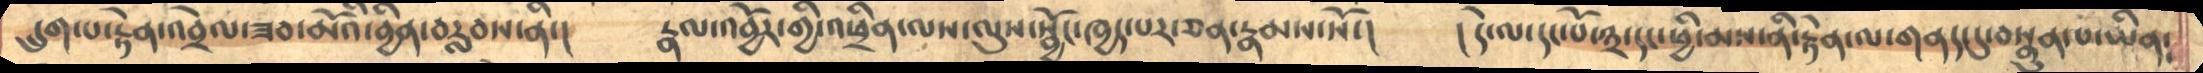དྲུག་པ་རྟེན་འབྲེལ་ཟབ་མོའི་བྱིན་བརླབས་ནི་།    རྣལ་འབྱོར་གྱི་འཕྲིན་ལས་ལུས་སྦྱོང་ཁྱད་པར་ཅན་རྣམས་སོ་།   །དེ་ལ་དང་པོ་༣་དང་ཕྱི་མས་ནི་རྟེན་ལ་གནད་དུ་བསྣུན་པ་ཡིན༴
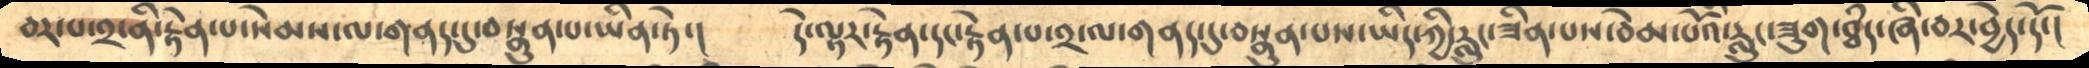བར་པ་༢་ནི་རྟེན་པ་སེམས་ལ་གནད་དུ་བསྣུན་པ་ཡིན་ཏེ་།    དེ་ལྟར་རྟེན་དང་རྟེན་པ་༢་ལ་གནད་དུ་བསྣུན་པས་ཡིད་ཀྱི་རླུང་ཟིན་པས་བེམ་པོའི་རླུང་ཟུག་ཐཾད་ཞི་བར་བྱེད་དོ་།
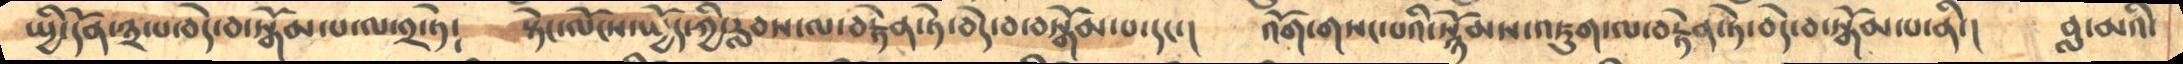སྤྱི་དོན་༣་པ་བདེ་བ་སྒོམ་པ་ལ་༢་ཏེ༴   སྟེང་ལོངས་སྤྱོད་ཀྱི་རླབས་ལ་བརྟེན་ཏེ་བདེ་བ་བསྒོམ་པ་དང་།   འོག་གསང་པའི་སྙོམས་འཇུག་ལ་བརྟེན་ཏེ་བདེ་བ་སྒོམ་པ་ནི་།   བླ་མའི་
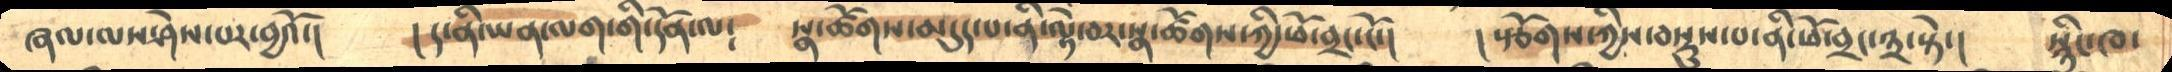ཞལ་ལས་ཤེས་པར་བྱའོ་།   །ད་ནི་ཡན་ལག་གི་དོན་ལ༴   སྣ་ཚོགས་མདུད་པ་ནི་ལྟེ་བར་སྣ་ཚོགས་ཀྱི་ཕོ་བྲང་ངོ་།    །སྩོགས་ཀྱིས་བསྡུས་པ་ནི་ཕོ་བྲང་༣་སྟེ་།    སྙིང་ཁ་
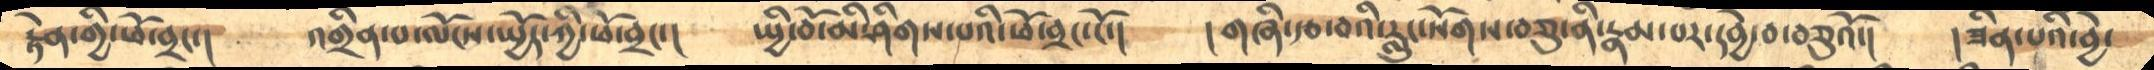རྟེན་གྱི་ཕོ་བྲང་།   འགྲིན་པ་ལོངས་སྤྱོད་ཀྱི་ཕོ་བྲང་།   སྤྱི་བོ་མི་ཤིགས་པའི་ཕོ་བྲང་ངོ་།    །གཞི་རྩ་བའི་རླུང་སོགས་བཅུ་ནི་རྣམ་པར་དབྱེ་བ་བཅུའོ་།    །ཟིན་པའི་བྱེ་
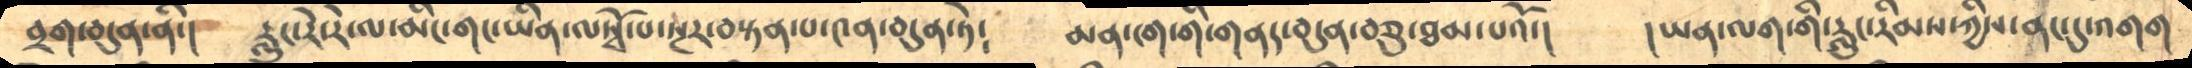བྲག་བདུན་ནི་།    རླུང་རེ་རེ་ལ་མིང་གང་ཡིན་ལསྭོ་པ་སྔར་བསྟན་པ་༤ན་བདུན་ཏེ༴    མན་ངག་གི་གནད་བདུན་བཅུ་ཐམ་པའོ་།   །ཡན་ལག་གི་རླུང་རིམས་ཀྱིས་ནང་དུ་འགག
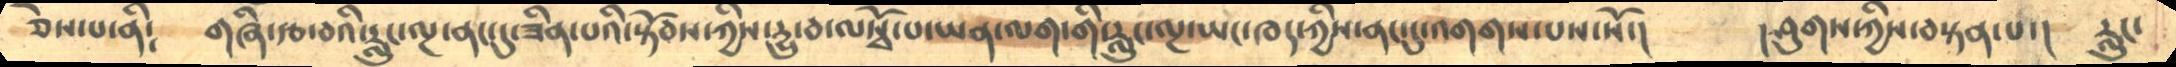ཅེས་པ་ནི༴    གཞི་རྩ་བའི་རླུང་ལྔ་ནང་དུ་ཟིན་པའི་སྟོབས་ཀྱིས་དྱུ་བ་ལསྭོ་པ་ཡན་ལག་གི་རླུང་ལྔ་ཡང་ཁད་ཀྱིས་ནང་དུ་འགགས་པས་སོ་།     །ཤུགས་ཀྱིས་བསྟན་པ་།   རླུང་
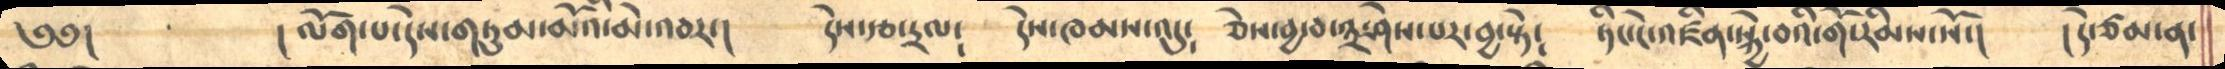༄༅།       །ལོག་པ་དེས་གཏུམ་མོ་མེ་འབར་།   དེས་རྩ་དྲལ༴   དེས་ཁམས་འདུ༴   ཅེས་བྱ་བ་༣་ཤེས་པར་བྱ་སྟེ༴   ཏིང་ངེ་འཛིན་སྐྱེ་བའི་གོ་རིམས་སོ་།   །དེ་ཙམ་ན་
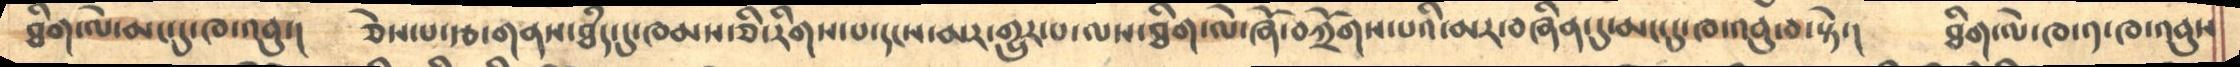ཐིག་ལེ་མང་དུ་ཁ་འབུ་།    ཅེས་པ་རྩ་གནས་ཐཾད་དུ་ཁམས་ཅི་རིགས་པ་དངས་མར་གྱུར་པ་ལས་ཐིག་ལེ་ཞོ་བཀྲོགས་པའི་མར་བཞིན་དུ་མང་དུ་ཁ་འབུ་བ་སྟེ་།   ཐིག་ལེ་ཁ་༡་ཁ་འབུས
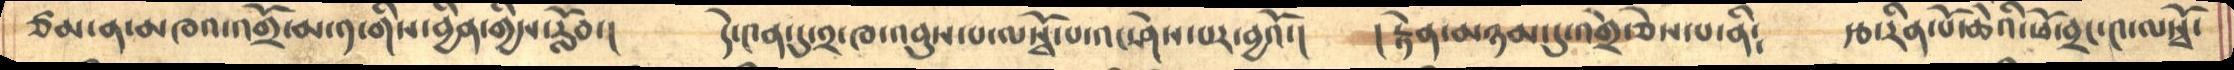ཙམ་ན་མཁའ་འགྲོ་མ་༡་གིས་བྱིན་གྱིས་རློབ་།   དེ་༤ན་དུ་༢་ཁ་འབུས་པ་ལསྭོ་པ་འང་ཤེས་པར་བྱའོ་།   །རྟེན་མཉམ་དུ་འགྲོ་ཅེས་པ་ནི༴   རྩ་རིན་པོ་ཆེའི་ཕོ་བྲང༤་ལསྭོ་
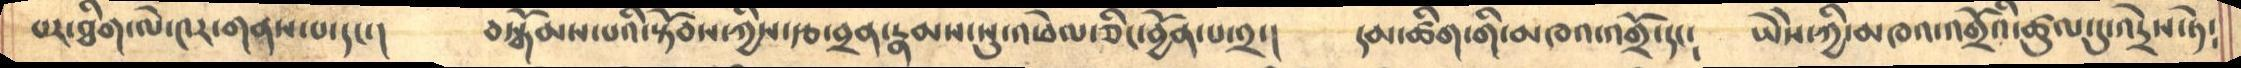པར་ཐིག་ལེ་༤ར་གནས་པ་དང་།    བསྒོམས་པའི་སྟོབས་ཀྱིས་རྩ་བྲན་རྣམས་སུ་འཕེལ་ཅིང་བྱོན་པ་༢་།    དམ་ཚིག་གི་མཁའ་འགྲོ་དང༴   ཡཻས་ཀྱི་མཁའ་འགྲོའི་ཚུལ་དུ་འདྲེས་ཏེ༴
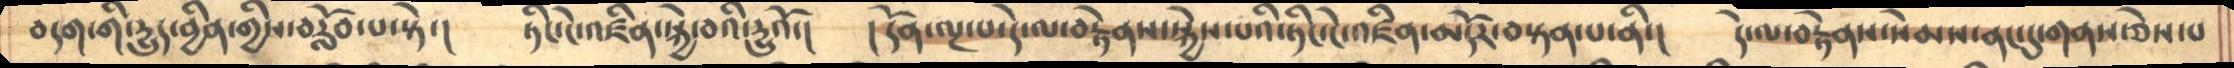བདག་གི་དྱུད་བྱིན་གྱིས་བརློབ་པ་སྟེ་།    ཏིང་ངེ་འཛིན་སྐྱེ་བའི་དྱུའོ་།   །དོན་ལྔ་པ་དེ་ལ་བརྟེནས་སྐྱེས་པའི་ཏིང་ངེ་འཛིན་མདོར་བསྟན་པ་ནི་།   དེ་ལ་བརྟེནས་སེམས་ནང་དུ་གནས་ཅེས་པ
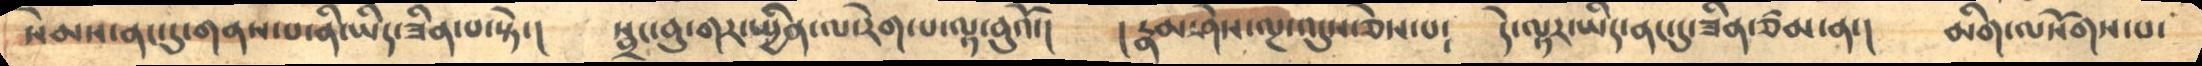སེམས་ནང་དུ་གནས་པ་ནི་ཡིད་ཟིན་པ་སྟེ་།    སྦྲང་བུ་གར་སྤྱིན་ལ་རེག་པ་ལྟ་བུའོ་།   །རྣམ་ཤེས་ལྔ་འདུས་ཅེས་པ༴   དེ་ལྟར་ཡིད་ནང་དུ་ཟིན་ཙམ་ན་།  མིག་ལསོགས་པ་
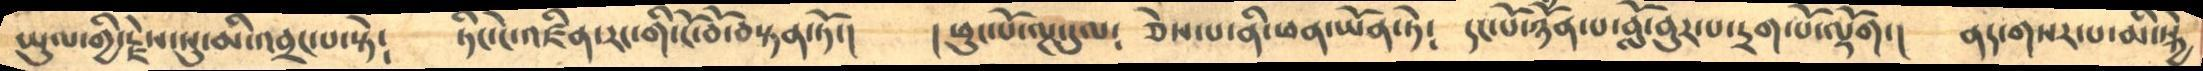ཡུལ་གྱི་རྗེས་སུ་མི་འབྲང་པ་སྟེ༴     ཏིང་ངེ་འཛིན་རང་གི་ངོ་བོ་བསྟན་ཏོ་།    །ཕུང་པོ་ལྔ་དུལ༴   ཅེས་པ་ནི་ཕན་ཡོན་ཏེ༴   དང་པོ་ཉོཾན་པ་བློ་བུར་པ་དྲག་པོ་ལྡོག་།   ནད་གསར་པ་མི་སྐྱེ
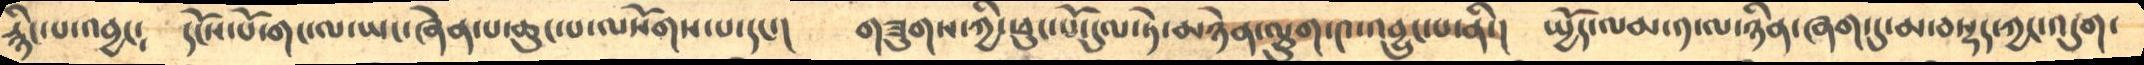རྙིང་པ་འབྱང༴    དངོས་པོ་གང་ལ་ཡང་ཞེན་པ་ཆུང་པ་ལསོགས་པ་དང་།     གཟུགས་ཀྱི་ཕུང་པོ་དུལ་ཏེ་མཉེན་ལྕུག་༤་འབྱུང་པ་ནི་།   སྤྱོད་ལམ་༡་ལ་ཉིན་ཞག་དུ་མ་བསྡད་ཀྱང་འདུག་
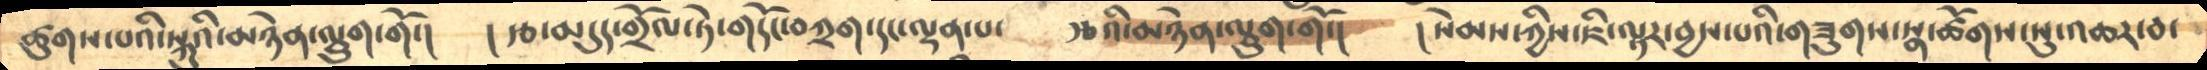ཚུགས་པའི་སྐུའི་མཉེན་ལྕུག་གོ་།   །རྩ་མདུད་གྲོལ་ཏེ་གདོང་བཀྲག་དང་ལྡན་པ༴     རྩའི་མཉེན་ལྕུག་གོ་།   །སེམས་ཀྱིས་ཇི་ལྟར་བྱས་པའི་གཟུགས་སྣ་ཚོགས་སུ་འཆར་བ་
